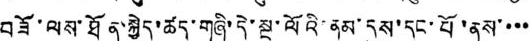བཟོ་ལས་ཐོན་སྐྱེད་ཚད་གཞི་དེ་སྔ་ལོའི་ནམ་དུས་དང་པོ་ནས་་་་
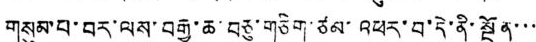གསུམ་པ་བར་ལས་བརྒྱ་ཆ་བཅུ་གཅིག་ཙམ་འཕར་བ་དེ་ནི་སྔོན་་་
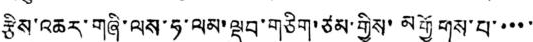རྩིས་འཆར་གཞི་ལས་ཧ་ལམ་ལྡབ་གཅིག་ཙམ་གྱིས་མགྱོགས་པ་་་་་
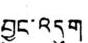བྱུང་འདུག
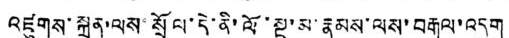འཛུགས་སྐྲུན་ལས་སྲོལ་དེ་ནི་ལོ་སྔ་མ་རྣམས་ལས་བརྒལ་འདུག
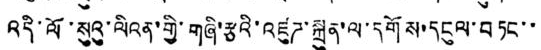འདི་ལོ་སུའུ་ལིའན་གྱི་གཞི་རྩའི་འཛུཌ་སྐྲུན་ལ་དགོས་དངུལ་བཏང་་
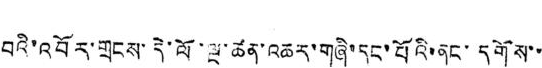བའི་འབོར་གྲངས་དེ་ལོ་ལྔ་ཚན་འཆར་གཞི་དང་པོའི་ནང་དགོས་་
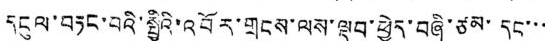དངུལ་བཏང་བའི་སྤྱིའི་འབོར་གྲངས་ལས་ལྡབ་ཕྱེད་བཞི་ཙམ་དང་་་
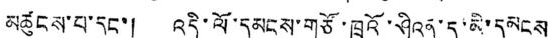མཚུངས་པ་དང་། འདི་ལོ་དམངས་གཙོ་ཁྲའོ་ཤིའན་དུ་མི་དམངས
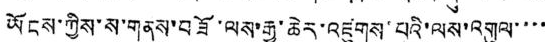ཡོངས་ཀྱིས་ས་གནས་བཟོ་ལས་རྒྱ་ཆེར་འཛུགས་པའི་ལས་འགུལ་་་་
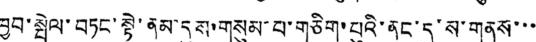ཁྱབ་སྤེལ་བཏང་སྟེ་ནམ་དུས་གསུམ་པ་གཅིག་པུའི་ནང་དུ་ས་གནས་་་
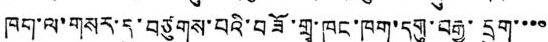ཁག་ལ་གསར་དུ་བཙུགས་པའི་བཟོ་གྲྭ་ཁང་ཁག་དགུ་བརྒྱ་དྲུག་་་་
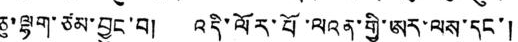ཅུ་ལྷག་ཙམ་བྱུང་བ། འདི་ལར་པོ་ལའན་གྱི་ཨར་ལས་དང་།
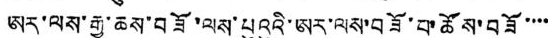ཨར་ལས་རྒྱུ་ཆས་བཟོ་ལས་པུའུའི་ཨར་ལས་བཟོ་བ་ཚོས་བཟོ་་་་
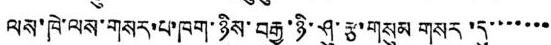ལས་ཁེ་ལས་གསར་པ་ཁག་ཉིས་བརྒྱ་ཉི་ཤུ་རྩ་གསུམ གསར་དུ་་་་་་་
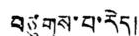བཙུགས་པ་རེད།
